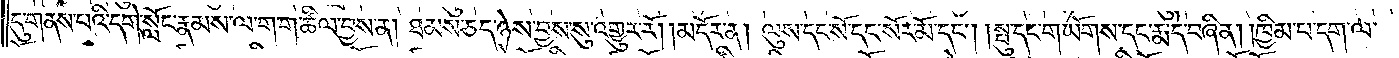དུ་གནས་པའི་དགེ་སློང་རྣམས་ལ་ག་ག་ཚིལ་བྱས་ན། ཐམས་ཅད་ཉེས་བྱས་སུ་འགྱུར་རོ། །མདོར་ན། ལུས་དང་སོ་དང་སོར་མོ་དང༌། །སྤུ་དང་གཡོགས་དང་རྨ་དེ་བཞིན། །ཁྱིམ་པ་དག་ལ་
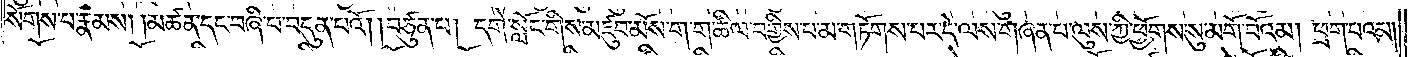སོགས་པ་རྣམས། །མཚན་དང་བཞི་པ་བདུན་པའོ། །བཙུན་པ། དགེ་སློང་གིས་མཛུབ་མོས་ག་ག་ཚིལ་བགྱིས་པ་མ་གཏོགས་པར་དེ་ལས་གཞན་པ་ལུས་ཀྱི་ཕྱོགས་སུ་མགོ་བོའམ། ཕྲག་པའམ།
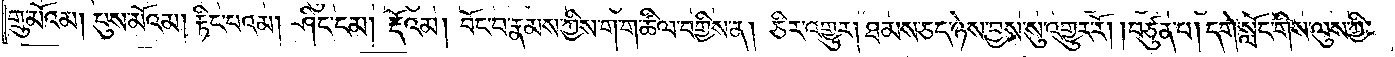གྲུ་མོའམ། པུས་མོའམ། རྟིང་པའམ། ཤིང་ངམ། རྡོའམ། བོང་བ་རྣམས་ཀྱིས་ག་ག་ཚིལ་བགྱིས་ན། ཅིར་འགྱུར། ཐམས་ཅད་ཉེས་བྱས་སུ་འགྱུར་རོ། །བཙུན་པ། དགེ་སློང་གིས་ལུས་ཀྱི་
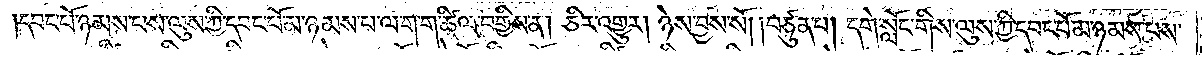དབང་པོ་ཉམས་པས་ལུས་ཀྱི་དབང་པོ་མ་ཉམས་པ་ལ་ག་ག་ཚིལ་བགྱིས་ན། ཅིར་འགྱུར། ཉེས་བྱས་སོ། །བཙུན་པ། དགེ་སློང་གིས་ལུས་ཀྱི་དབང་པོ་མ་ཉམས་པས་
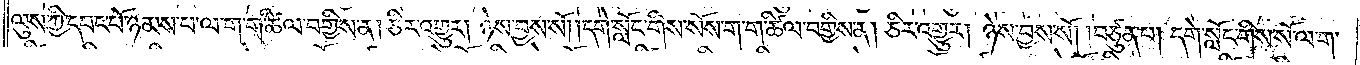ལུས་ཀྱི་དབང་པོ་ཉམས་པ་ལ་ག་ག་ཚིལ་བགྱིས་ན། ཅིར་འགྱུར། ཉེས་བྱས་སོ། །དགེ་སློང་གིས་སོས་ག་ག་ཚིལ་བགྱིས་ན། ཅིར་འགྱུར། ཉེས་བྱས་སོ། །བཙུན་པ། དགེ་སློང་གིས་སོ་ལ་ག་
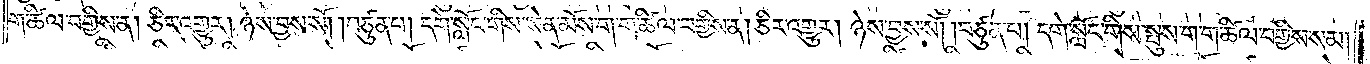ག་ཚིལ་བགྱིས་ན། ཅིར་འགྱུར། ཉེས་བྱས་སོ། །བཙུན་པ། དགེ་སློང་གིས་སེན་མོས་ག་ག་ཚིལ་བགྱིས་ན། ཅིར་འགྱུར། ཉེས་བྱས་སོ། །བཙུན་པ། དགེ་སློང་གིས་སྤུས་ག་ག་ཚིལ་བགྱིས་སམ།
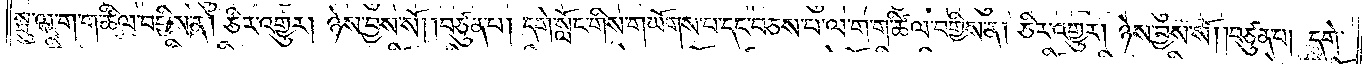སྤུ་ལ་ག་ག་ཚིལ་བགྱིས་ན། ཅིར་འགྱུར། ཉེས་བྱས་སོ། །བཙུན་པ། དགེ་སློང་གིས་གཡོགས་པ་དང་བཅས་པ་ལ་ག་ག་ཚིལ་བགྱིས་ན། ཅིར་འགྱུར། ཉེས་བྱས་སོ། །བཙུན་པ། དགེ་
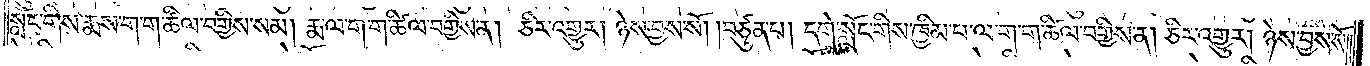སློང་གིས་རྨས་ག་ག་ཚིལ་བགྱིས་སམ། རྨ་ག་ག་ཚིལ་བགྱིས་ན། ཅིར་འགྱུར། ཉེས་བྱས་སོ། །བཙུན་པ། དགེ་སློང་གིས་ཁྱིམ་པ་ལ་ག་ག་ཚིལ་བགྱིས་ན། ཅིར་འགྱུར། ཉེས་བྱས་སོ༎
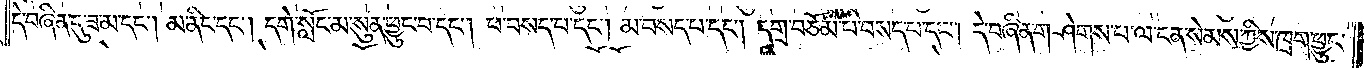དེ་བཞིན་དུ་ཟ་མ་དང༌། མ་ནིང་དང༌། དགེ་སློང་མ་སུན་ཕྱུང་བ་དང༌། ཕ་བསད་པ་དང༌། མ་བསད་པ་དང༌། དགྲ་བཅོམ་པ་བསད་པ་དང༌། དེ་བཞིན་གཤེགས་པ་ལ་ངན་སེམས་ཀྱིས་ཁྲག་ཕྱུང་
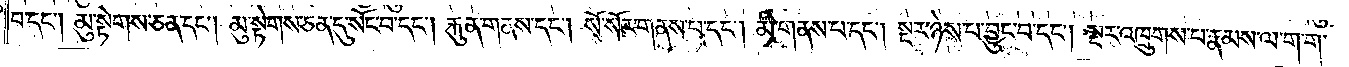བ་དང༌། མུ་སྟེགས་ཅན་དང༌། མུ་སྟེགས་ཅན་དུ་སོང་བ་དང༌། རྐུན་གནས་དང༌། སོ་སོར་གནས་པ་དང༌། མི་གནས་པ་དང༌། སྔར་ཉེས་པ་བྱུང་བ་དང༌། སྔར་འཁྲུགས་པ་རྣམས་ལ་ག་ག་
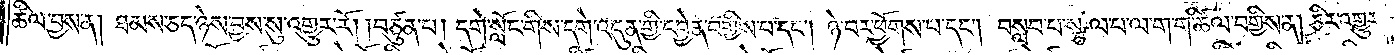ཚིལ་བྱས་ན། ཐམས་ཅད་ཉེས་བྱས་སུ་འགྱུར་རོ། །བཙུན་པ། དགེ་སོང་གིས་དགེ་འདུན་གྱི་དབྱེན་བགྱིས་པ་དང༌། ཉེ་བར་ཕྱོགས་པ་དང༌། བསླབ་པ་སྩལ་བ་ལ་ག་ག་ཚིལ་བགྱིས་ན། ཅིར་འགྱུར་
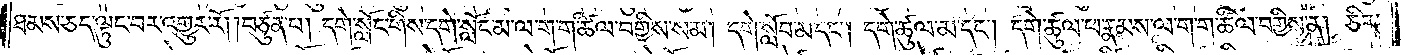ཐམས་ཅད་ལྟུང་བར་འགྱུར་རོ། །བཙུན་པ། དགེ་སློང་གིས་དགེ་སློང་མ་ལ་ག་ག་ཚིལ་བགྱིས་སམ། དགེ་སློབ་མ་དང༌། དགེ་ཚུལ་མ་དང༌། དགེ་ཚུལ་ཕ་རྣམས་ལ་ག་ག་ཚིལ་བགྱིས་ན། ཅིར་
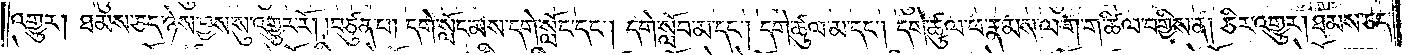འགྱུར། ཐམས་ཅད་ཉེས་བྱས་སུ་འགྱུར་རོ། །བཙུན་པ། དགེ་སློང་མས་དགེ་སློང་དང༌། དགེ་སློབ་མ་དང༌། དགེ་ཚུལ་མ་དང༌། དགེ་ཚུལ་ཕ་རྣམས་ལ་ག་ག་ཚིལ་བགྱིས་ན། ཅིར་འགྱུར། ཐམས་ཅད་
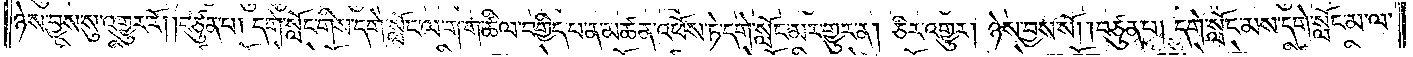ཉེས་བྱས་སུ་འགྱུར་རོ། །བཙུན་པ། དགེ་སློང་གིས་དགེ་སློང་ལ་ག་ག་ཚིལ་བགྱིད་པ་ན་མཚན་འཕོས་ཏེ་དགེ་སློང་མར་གྱུར་ན། ཅིར་འགྱུར། ཉེས་བྱས་སོ། །བཙུན་པ། དགེ་སློང་མས་དགེ་སློང་མ་ལ་
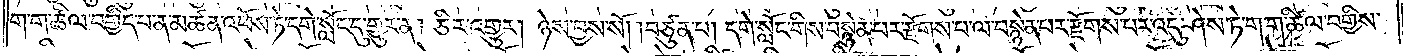ག་ག་ཚིལ་བགྱིད་པ་ན་མཚན་འཕོས་ཏེ་དགེ་སློང་དུ་གྱུར་ན། ཅིར་འགྱུར། ཉེས་བྱས་སོ། །བཙུན་པ། དགེ་སློང་གིས་བསྙེན་པར་རྫོགས་པ་ལ་བསྙེན་པར་རྫོགས་པར་འདུ་ཤེས་ཏེ་ག་ག་ཚིལ་བགྱིས་
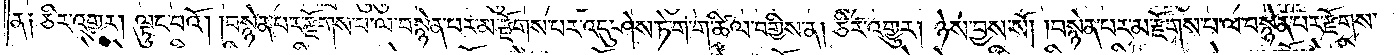ན༑ ཅིར་འགྱུར། ལྟུང་བའོ། །བསྙེན་པར་རྫོགས་པ་ལ་བསྙེན་པར་མ་རྫོགས་པར་འདུ་ཤེས་ཏེ་ག་ག་ཚིལ་བགྱིས་ན། ཅིར་འགྱུར། ཉེས་བྱས་སོ། །བསྙེན་པར་མ་རྫོགས་པ་ལ་བསྙེན་པར་རྫོགས་
